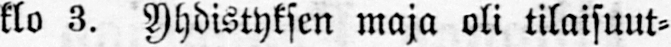klo 3. Yhdistyksen maja oli tilaisuut-
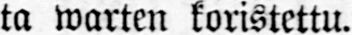ta warten koristettu.
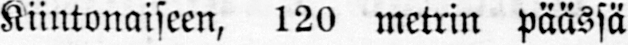Kiintonaiseen, 120 metrin päässä
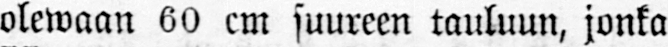olewaan 60 cm suureen tauluun, jonka
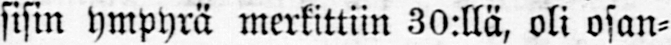sisin ympyrä merkittiin 30:llä, oli osan-
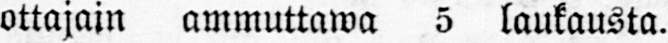ottajajn ammuttawa 5 laukausta.
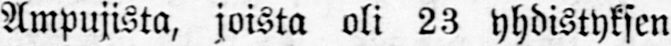Ampujista, joista oli 23 yhdistyksen
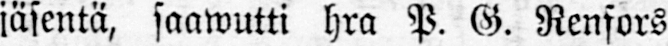jäsentä, saawutti hra P. G. Renfors
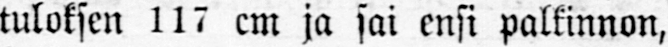tuloksen 117 cm ja sai ensi palkinnon,
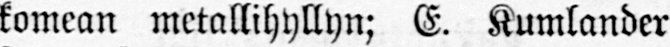komean metallihyllyn; E. Kumlander
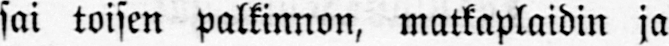sai toisen palkinnon, matkaplaidin ja
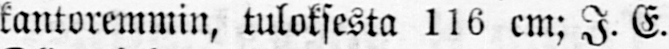kantoremmin, tuloksesta 116 cm; I. E.
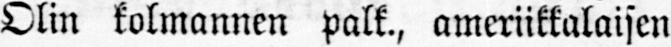Olin kolmannen palk., ameriikkalaisen
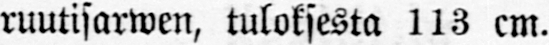ruutisarwen, tuloksesta 113 cm.
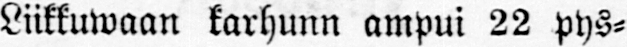Liikkulwaan karhunn ampui 22 pys-
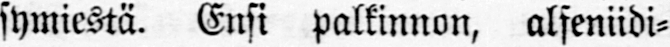symiestä. Ensi palkinnon, alfeniidi-
